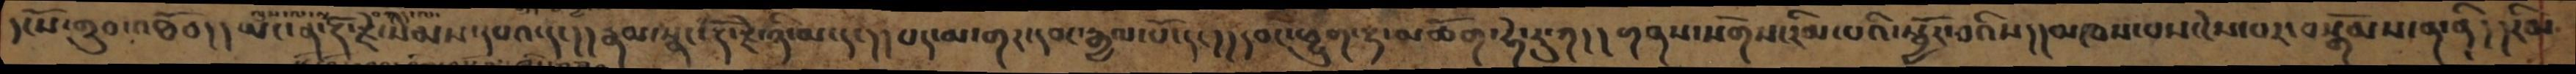དངོས་གྲུབ་འཐོབ།།ཡང་ན་རྡོ་རྗེ་སེམས་དཔའ་དང།།རྣམ་སྣང་རྡོ་རྗེ་ཉི་མ་དང།།པད་མ་གར་དབང་རྒྱལ་པོ་དང།།དབང་ཕྱུག་རྟ་མཆོག་ཧེ་རུ་ཀ།།གནས་སོགས་རིམ་པའི་སྦྱོར་བའིས།།མཁས་པས་ངེས་པར་བསྒོམས་ན་ནི།།རིམ
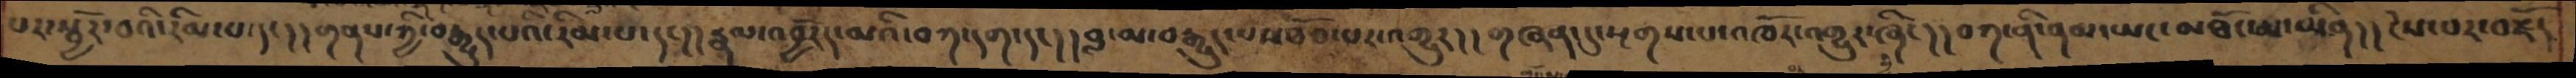པར་སྦྱོར་བའི་རིམ་པ་དང།།གནས་ཀྱི་བརྒྱུད་པའི་རིམ་པ་དང།།རྣལ་འབྱོརད་མའི་བཀ་དག་དང།།བླ་མ་བརྒྱུད་པས་ཐོབ་པར་འགྱུར།།གཞན་དུ་སྔགས་པ་འཁོར་འགྱུར་ཞིང།།བཀ་ནི་ནམ་ཡང་མཐོང་པ་ཡིན།།ངེས་པར་བརྗོད
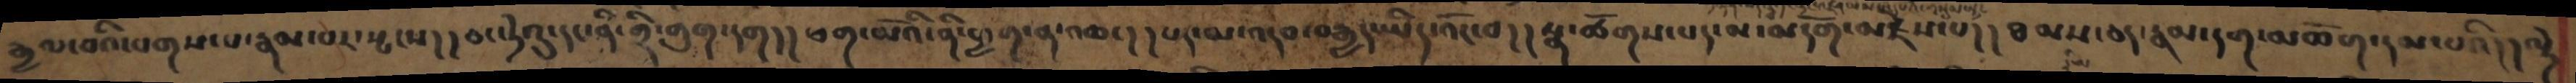རྒྱལ་བའི་པགས་པ་རྣམ་པར་སྤངས།།ཅང་ཏེའུ་དང་ནི་གྲི་གུག་དག།།ཕག་མོའི་ནི་ཕྱག་ན་འཆང།།པད་མ་འདབ་བརྒྱད་ཡིད་འོང་བ།།སྣ་ཚོགས་པད་མ་མདོག་མཛེས་པ།།ཐམས་ཅད་རྣམ་དག་མཆོག་དམ་པའི།།ལྟེ
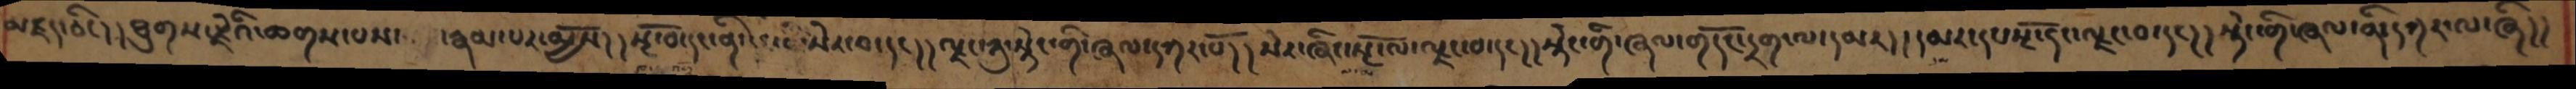མཛད་ཅིང།།ཐུགས་རྗེའི་ཆགས་པས་ རྣམ་པར་མྱོས།།སྔོ་བ་དང་དང་ནི་སེར་བ་དང།།ལྗང་ཀུ་སྟེང་གི་ཞལ་དཀར་པོ།།སེར་ཞིང་སྔོ་ལ་ལྗང་བ་དང།།སྟེང་གི་ཞལ་གདོང་དྲག་ལ་དམར།།དམར་དང་སྔོ་དང་ལྗང་བ་དང།།སྟེང་གི་ཞལ་ནི་དཀར་ལ་ཞི།།
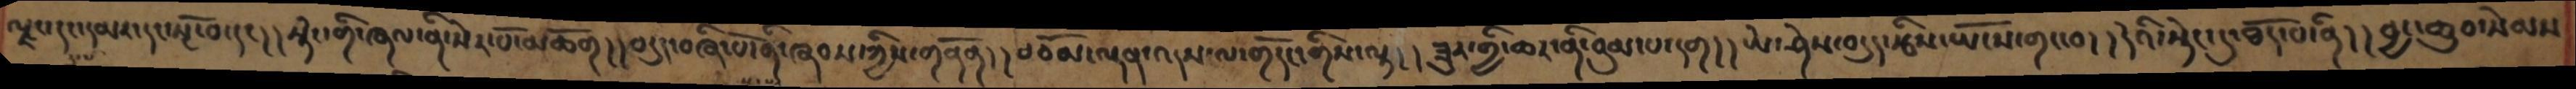ལྗང་དང་དམར་དང་སྔོ་བ་དང།།སྟེང་གི་ཞལ་ནི་སེར་པོ་མཆོག།།བདུད་བཞི་པོ་ནི་ཞབས་ཀྱིས་གནོན།།བཅོམ་ལྡན་འདས་ལ་གདོང་གིས་ལྟ།།ཟུར་གྱི་ཆར་ནི་བུམ་པ་དག།།ཡེ་ཤེས་བདུད་རྩིས་ཡོངས་གང་བ།།དེའི་སྟེང་དུ་ཐོད་པ་ནི།།བྱང་ཆུབ་སེམས
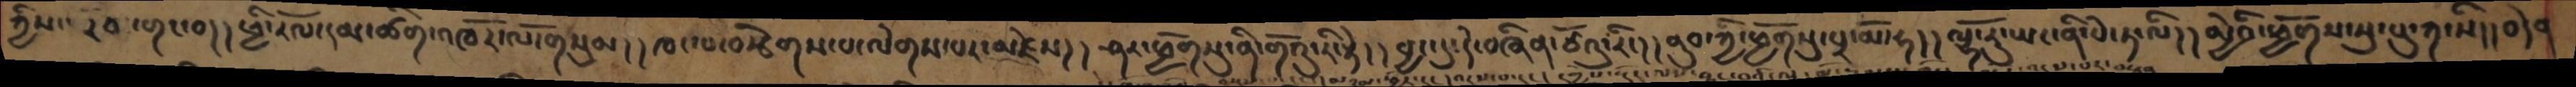ཀྱིས་རབ་གང་བ།།ཕྱི་རོལ་དམ་ཚིག་འཁོར་ལོ་གསུམ།།ཁང་པ་བརྩེགས་པ་ལེགས་པར་མཛེས།།ཤར་ཕྱོགསུ་ནི་གོའུ་རི་སྟེ།།བྱང་དུ་དེ་བཞིན་ཙོའུ་རིང།།ནུབ་ཀྱི་ཕྱོགསུ་པྲ་མོ་ཧ།།ལྷོ་རུ་ཡང་ནི་པེ་ཏ་ལི།།མྱེའི་ཕྱོགས་སུ་པུ་ཀ་སི།།བདེན
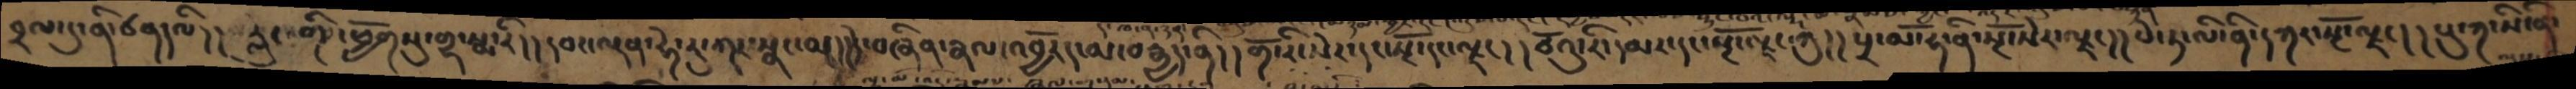བྲལ་དུ་ནི་ཙནདལི།།རླུང་གི་ཕྱོགསུ་གྷ་སྨ་རི།།དབང་ལྡན་ཧེ་རུ་ཀར་སྣང་མ།།དེ་བཞིན་རྣལ་འབྱོརད་མ་བརྒྱད་ནི།།གོ་རི་སེར་དང་སྔོ་དང་ལྗང།།ཙོའུ་རི་དམར་དང་སྔོ་ལྗང་ཀུ།།པྲ་མོ་ཧ་ནི་སྔོ་སེར་ལྗང།།པེ་ཏ་ལི་ནི་དཀར་སྔོ་ལྗང།།པུ་ཀ་སི་ནི་
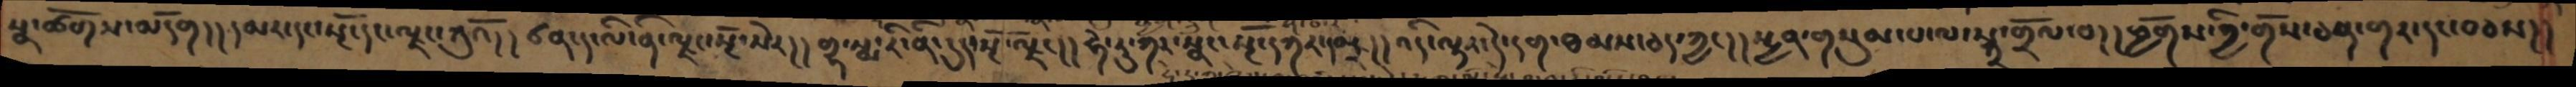སྣ་ཚོགས་མདོག།།དམར་དང་སྔོ་དང་ལྗང་ཀུའོ།།ཙན་ད་ལི་ནི་ལྗང་སྔོ་སེར།།གྷ་སྨ་རི་ནི་དུད་སྔོ་ལྗང།།ཧེ་རུ་ཀར་སྣང་སྔོ་དཀར་དམར།།འདི་ལྟར་དེ་དག་ཐམས་ཅད་ཀྱང།།སྤྱན་གསུམ་པ་ལ་སྐྲ་གྲོལ་བ།།ཕྱོགས་ཀྱི་གོས་ཅན་གར་དང་བཅས།།
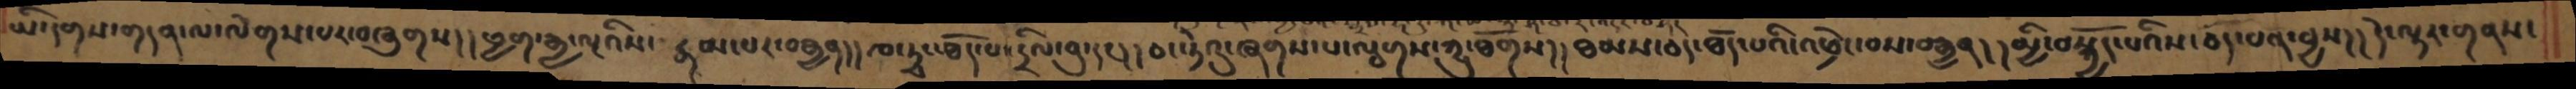ཡི་དགས་གདན་ལ་ལེགས་པར་བཞུགས།།ཕྱག་རྒྱ་ལྔའིས་རྣམ་པར་བརྒྱན།།ཁ་ཏྭང་ཐོད་པ་དྲིལ་བུ་དང།།ཅང་ཏེའུ་ཞགས་པ་ལྕགས་ཀྱུ་ཐོགས།།ཐམས་ཅད་ཐོད་པའི་འཕྲེང་བས་བརྒྱན།།མྱི་བསྐྱོད་པའིས་ཅོད་པན་བྱས།།དེ་ལྟར་གནས་
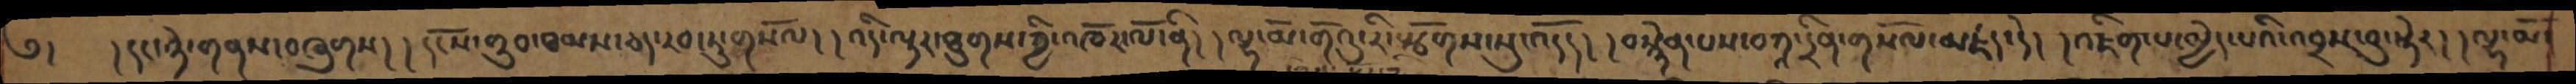༄། །དང་ཉེ་གནས་བཞུགས།།དངོས་གྲུབ་ཐམས་ཅད་རབ་ཏུ་གསོལ།།འདི་ལྟར་ཐུགས་ཀྱི་འཁོར་ལོ་ནི།།ལྷ་མོ་གོའུ་རི་སྩོགས་སུ་འདོད།།བསྙེན་པས་བཀའ་དྲིན་གསོལ་མཛད་དེ།།འཇིག་པ་མྱེད་པའི་འབྲས་བུ་སྟེར།།ལྷ་མོ་
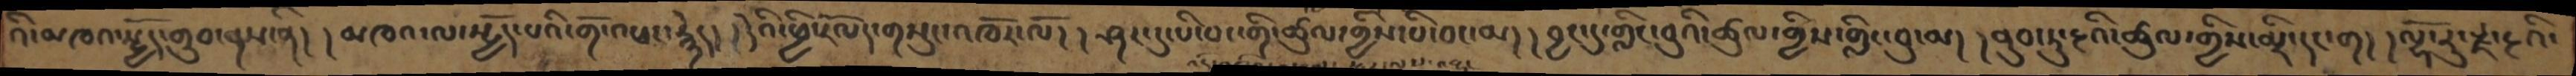འི་མཁའ་སྤྱོད་གྲུབ་ནས་ནི།།མཁའ་ལ་སྤྱོད་པའི་གོ་འཕང་རྙེད།།དེའི་ཕྱི་རོལད་གསུང་འཁོར་ལོ།།ཤར་དུ་པི་བང་གི་ཚུལ་གྱིས་པི་བང་མ།།བྱང་དུ་གླིང་བུའི་ཚུལ་གྱིས་གླིང་བུ་མ།།ནུབ་དཏུ་རྔའི་ཚུལ་གྱིས་མྲི་དང་ག།།ལྷོ་རུ་རྫ་རྔའི་
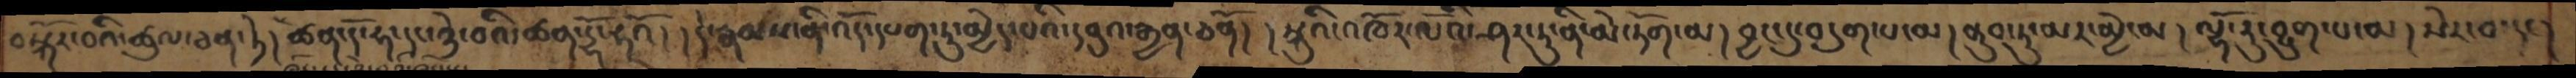བསྐོར་བའི་ཚུལ་ཅན་ཏེ།ཚན་དོ་ཧ་དང་ཉེ་བའི་ཚན་དྷོ་ཧའོ།།དེ་རྣམས་ནི་འོད་དཔག་ཏུ་མྱེད་པའི་དབུའ་རྒྱན་ཅནོ།།སྐུའི་འཁོར་ལོའི་ཤར་ཏུ་ནི་མེ་ཏོག་མ། བྱང་དུ་བདུག་པ་མ།ནུབ་ཏུ་མར་མྱེ་མ།ལྷོ་རུ་བྱུག་པ་མ།སེར་བ་དང།
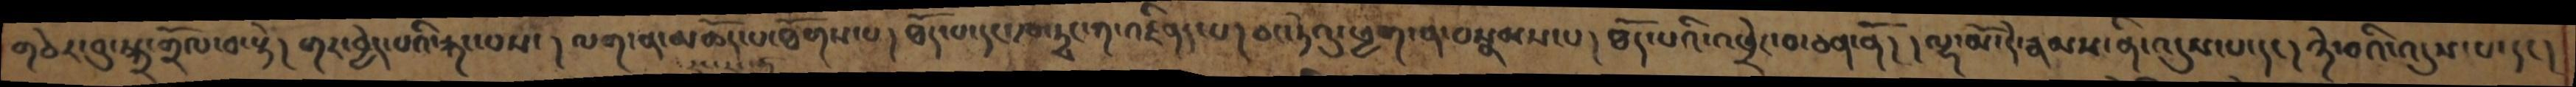གཅེར་བུ་སྐྲ་གྲོལ་བ་སྟེ།གར་བྱེད་པའི་རྐང་བས།ལག་ན་མཆོད་པ་ཐོགས་པ།ཐོད་པ་དང་ཁ་ཏྭང་ཀ་འཛིནད་པ།ཅང་ཏེའུ་ཕྱག་ན་བསྣམས་པ།ཐོད་པའི་འཕྲེང་བ་ཅན་ནོ།།ལྷ་མོ་དེ་རྣམས་ནི་འདུས་པ་དང།ཉེ་བའི་འདུས་པ་དང།
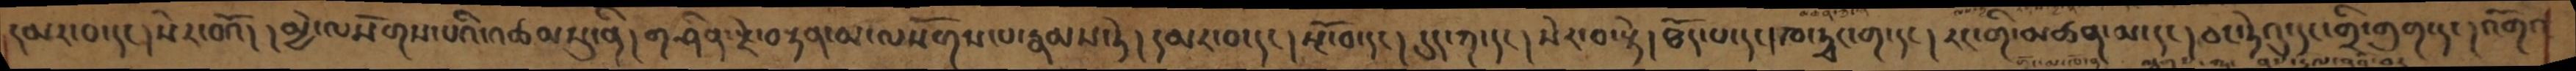དམར་བ་དང། སེར་བའོ།། མྱེ་ལསོགས་པའི་འཚམསུ་ནི། གཤིན་རྗེ་བརྟན་མ་ལསོགས་པ་རྣམས་ཏེ། དམར་བ་དང། སྔོ་བ་དང། དུད་ཀ་དང། སེར་བ་སྟེ། ཐོད་པ་དང། ཁ་ཏྭང་ག་དང། རང་གི་མཚན་མ་དང། ཅང་ཏེའུ་དང་གྲི་གུག་དང། འོག་
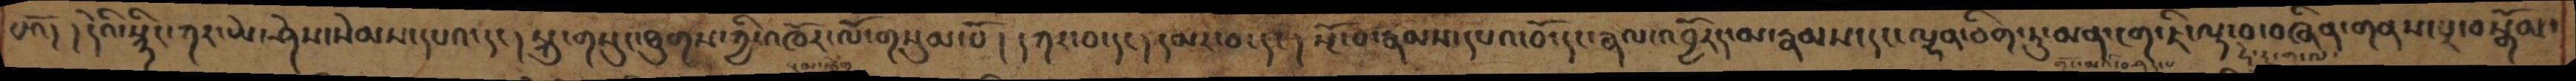པའོ།། དེའི་སྙིང་ཀར་ཡེ་ཤེས་སེམས་དཔའ་དང། སྐུ་གསུང་ཐུགས་ཀྱི་འཁོར་ལོ་གསུམ་པོ།། དཀར་བ་དང། དམར་བ་དང། སྔོ་བ་རྣམས་དཔའ་བོ་དང་རྣལ་འབྱོརད་མ་རྣམས་དང་ལྷན་ཅིག་ཏུ་མན་ངག་ཇི་ལྟ་བ་བཞིན་གནས་པར་བསྒོམ་
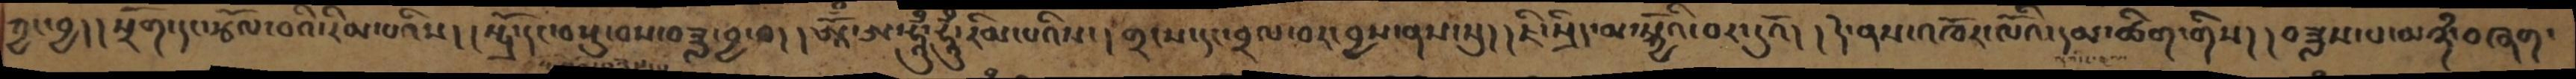ཀྱང་བྱ།། སྲོག་དང་རྩོལ་བའི་རིམ་པའིས།། སྤྲོ་དང་བསྡུ་བས་བཟླ་བྱ་བ།། ཨཱོྃ་ཨ་ཧཱུྃ་ཧཱུྃ་རིམ་པའིས་། གྲངས་དང་བྲལ་བར་བྱས་ནས་སུ།། ཇི་སྲིད་མ་སྐྱོའི་བར་དུའོ།། དེ་ནས་འཁོར་ལོའི་དམ་ཚིག་གིས།། བཟླས་པ་མཉཾ་བཞག་
